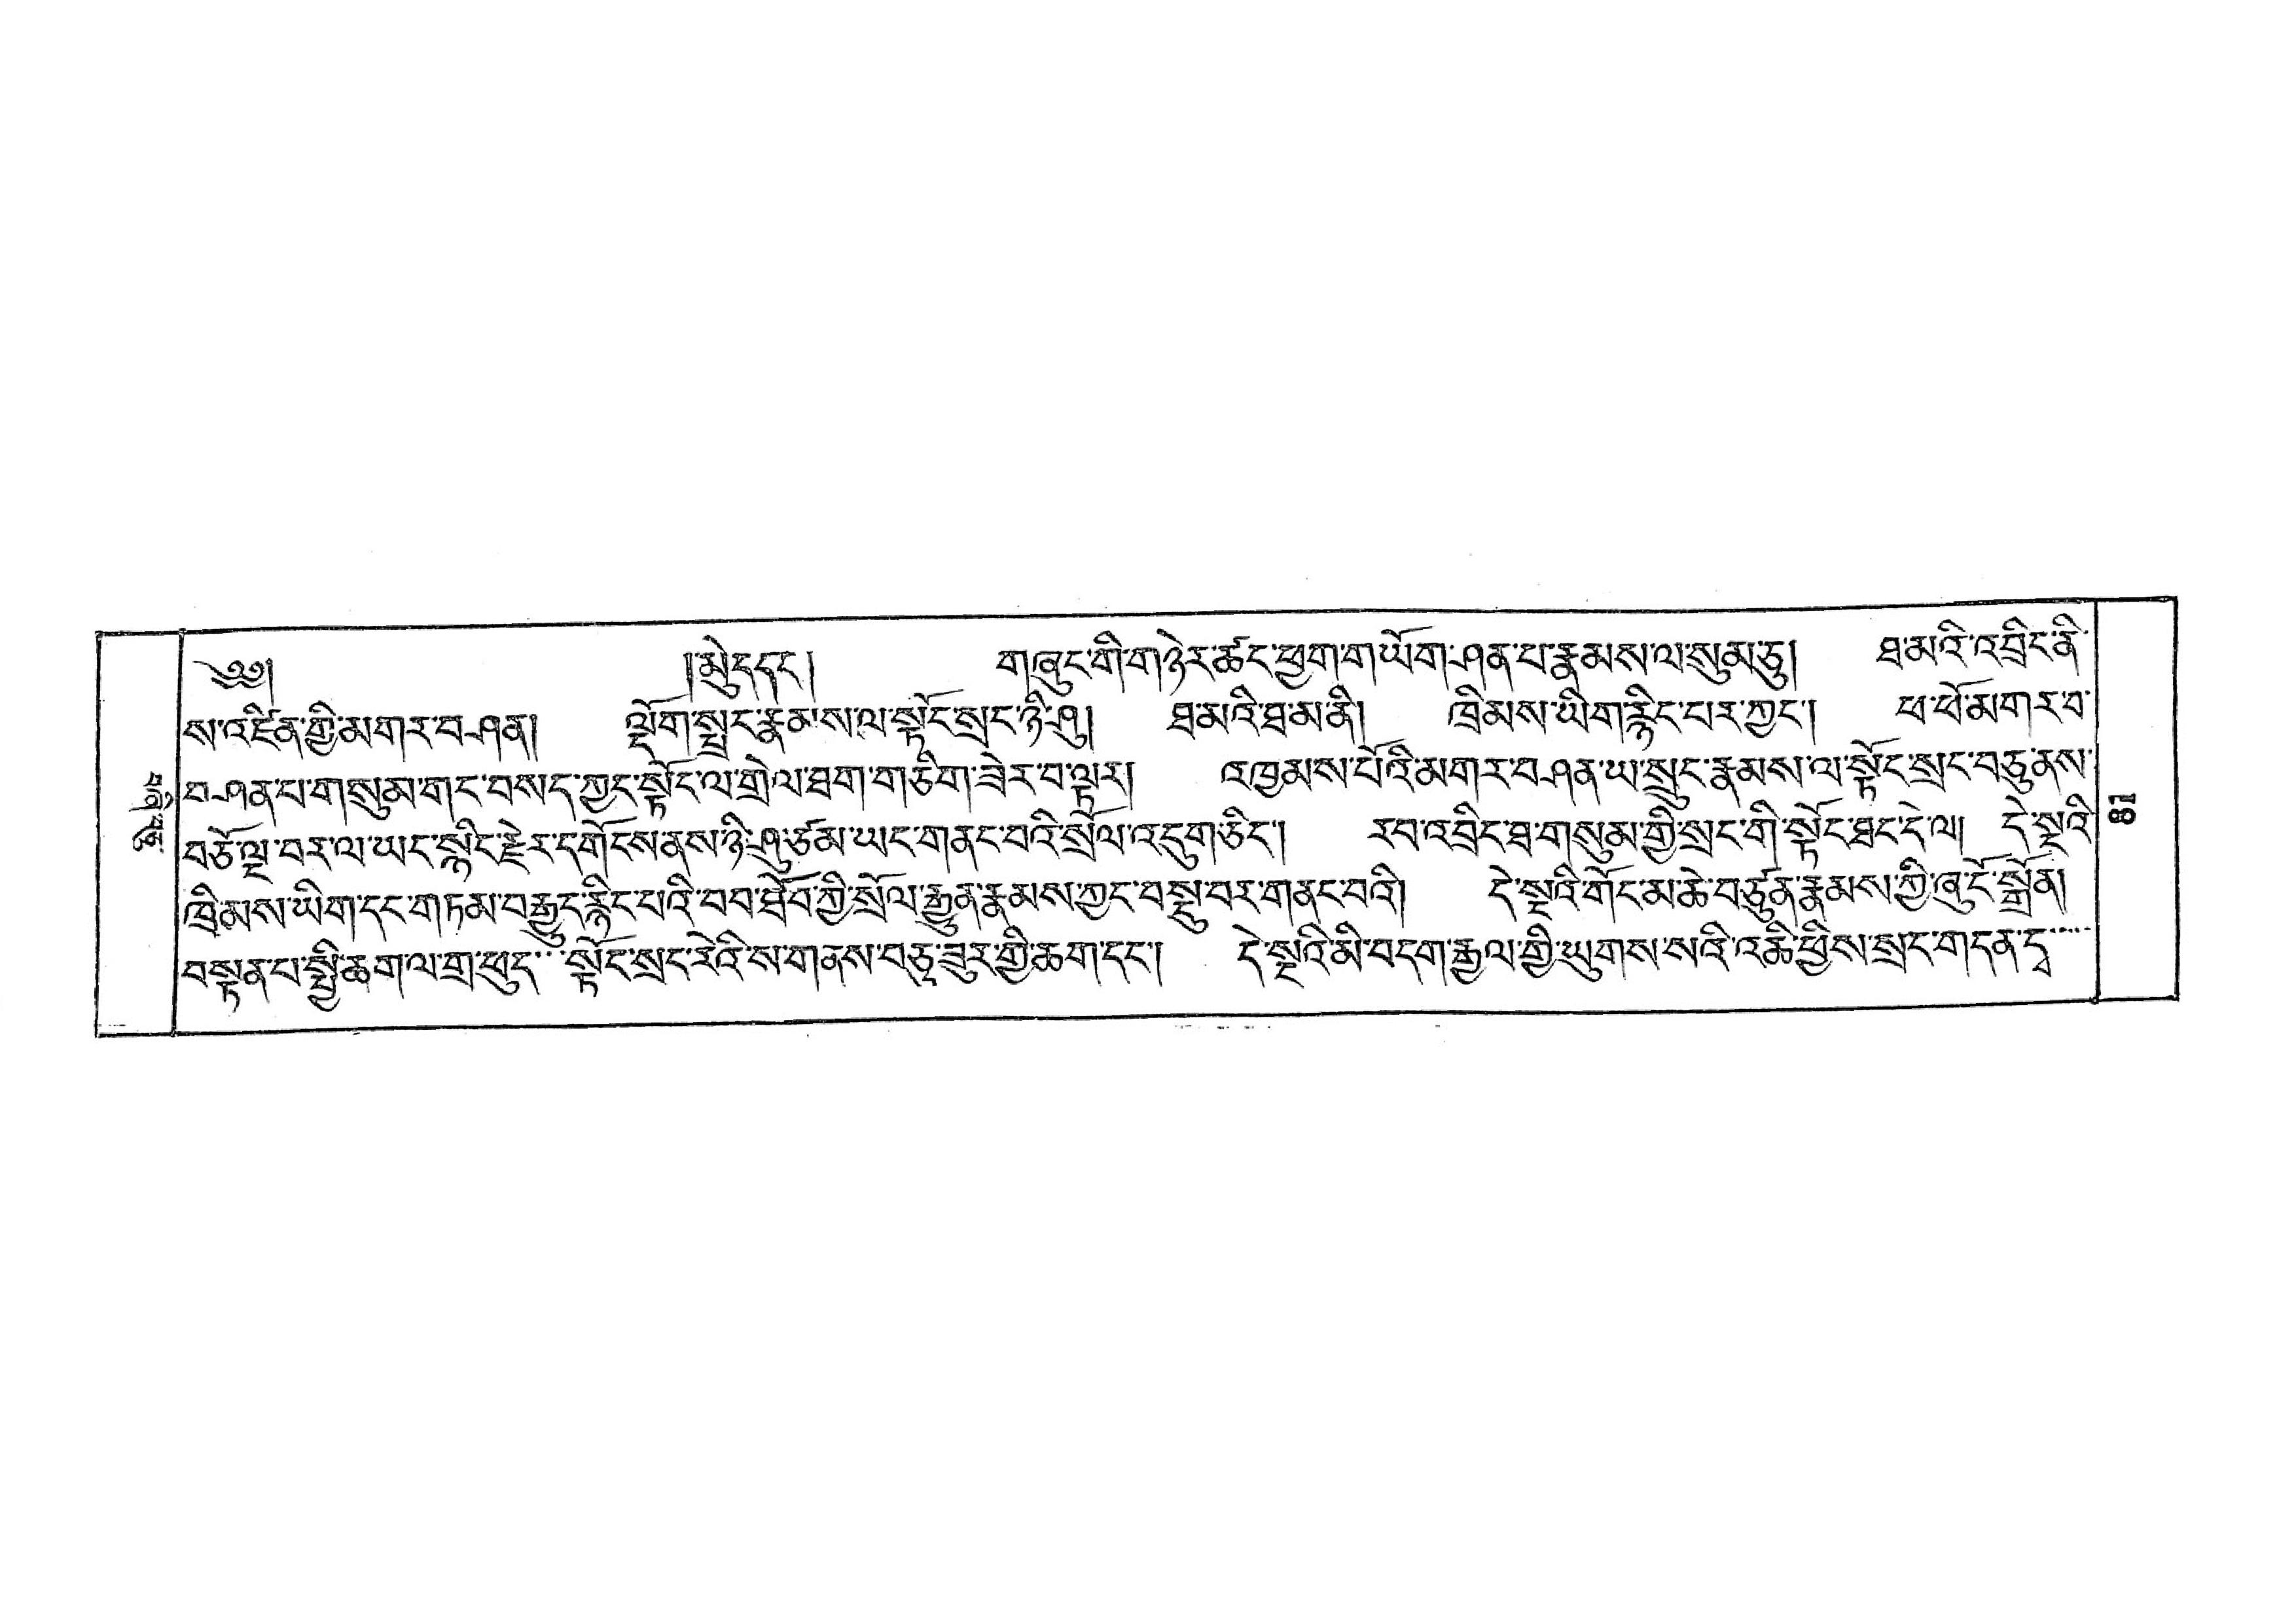བཞི་བཅུ་
༄༅།  །མེུད་དང་། གཞུང་གི་གཉེར་ཚང་ཕྱག་གཡོག་ཤན་པ་རྣམས་ལ་སུམ་ཅུ། ཐ་མའི་འབྲིང་ནི་
ས་འཛིན་གྱི་མགར་བཤན། ལྡོག་སྤྲང་རྣམས་ལ་སྟོང་སྲང་ཉི་ཤུ། ཐ་མའི་ཐ་མ་ནི། ཁྲིམས་ཡིག་རྙིང་པར་ཀྱང་། ཕ་ཕོ་མགར་བ་
བཤན་པ་གསུམ་གང་བསད་ཀྱང་སྟོང་ལ་གྲེལ་ཐག་གཅིག་ཟེར་བ་ལྟར། འཁྱམས་པོའི་མགར་བཤན་ཡ་སྲུང་རྣམས་ལ་སྟོང་སྲང་བཅུ་ནས་
བཅོ་ལྔ་བར་ལ་ཡང་སྙིང་རྗེར་དགོངས་ནས་ཉི་ཤུ་ཙམ་ཡང་གནང་བའི་སྲོལ་འདུག་ཅིང་། རབ་འབྲིང་ཐ་གསུམ་གྱི་སྲང་གི་སྟོང་ཐང་དེ་ལ། དེ་སྔའི་
ཁྲིམས་ཡིག་དང་གཏམ་བརྒྱུད་རྙིང་པའི་བབ་ཐོབ་ཀྱི་སྲོལ་རྒྱུན་རྣམས་ཀྱང་བསྡུ་བར་གནང་བའི། དེ་སྔའི་གོང་མ་ཆེ་བཙུན་རྣམས་ཀྱི་ཞུ་ངོ་སྒྲོན།
བསྟན་པ་སྤྱི་ཆག་ལ་གྲ་ཕུད་་་སྟོང་སྲང་རེའི་ས་གནས་བཅུ་ཟུར་གྱི་ཆག་དང་། དེ་སྔའི་མི་བདག་རྒྱལ་གྱི་ཡུགས་སའི་འཆི་ཕྱིས་སྲང་གདན་དྭ་་་་
